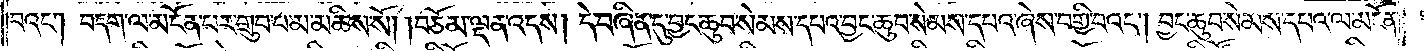བའང༌། བདག་ལ་མངོན་པར་གྲུབ་པ་མ་མཆིས་སོ། །བཅོམ་ལྡན་འདས། དེ་བཞིན་དུ་བྱང་ཆུབ་སེམས་དཔའ་བྱང་ཆུབ་སེམས་དཔའ་ཞེས་བགྱི་བའང༌། བྱང་ཆུབ་སེམས་དཔའ་ལ་མངོན་
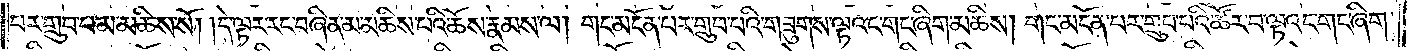པར་གྲུབ་པ་མ་མཆིས་སོ། །དེ་ལྟར་རང་བཞིན་མ་མཆིས་པའི་ཆོས་རྣམས་ལ། གང་མངོན་པར་གྲུབ་པའི་གཟུགས་ལྟའང་གང་ཞིག་མཆིས། གང་མངོན་པར་གྲུབ་པའི་ཚོར་བ་ལྟའང་གང་ཞིག་
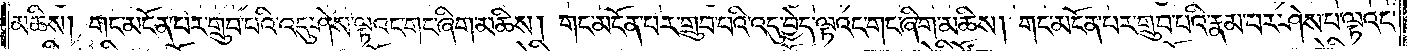མཆིས། གང་མངོན་པར་གྲུབ་པའི་འདུ་ཤེས་ལྟའང་གང་ཞིག་མཆིས། གང་མངོན་པར་གྲུབ་པའི་འདུ་བྱེད་ལྟའང་གང་ཞིག་མཆིས། གང་མངོན་པར་གྲུབ་པའི་རྣམ་པར་ཤེས་པ་ལྟའང་
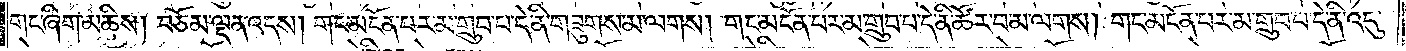གང་ཞིག་མཆིས། བཅོམ་ལྡན་འདས། གང་མངོན་པར་མ་གྲུབ་པ་དེ་ནི་གཟུགས་མ་ལགས། གང་མངོན་པར་མ་གྲུབ་པ་དེ་ནི་ཚོར་བ་མ་ལགས། གང་མངོན་པར་མ་གྲུབ་པ་དེ་ནི་འདུ་
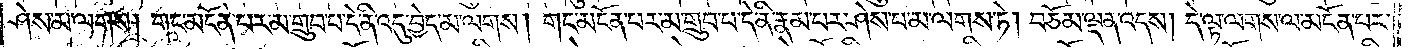ཤེས་མ་ལགས། གང་མངོན་པར་མ་གྲུབ་པ་དེ་ནི་འདུ་བྱེད་མ་ལགས། གང་མངོན་པར་མ་གྲུབ་པ་དེ་ནི་རྣམ་པར་ཤེས་པ་མ་ལགས་ཏེ། བཅོམ་ལྡན་འདས། དེ་ལྟ་ལགས་ལ་མངོན་པར་
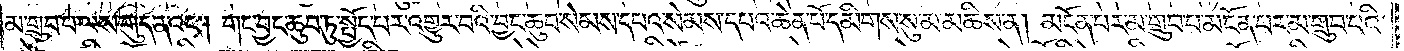མ་གྲུབ་པ་ལས་གུད་ནའང༌། གང་བྱང་ཆུབ་ཏུ་སྤྱོད་པར་འགྱུར་བའི་བྱང་ཆུབ་སེམས་དཔའ་སེམས་དཔའ་ཆེན་པོ་དམིགས་སུ་མ་མཆིས་ན། མངོན་པར་མ་གྲུབ་པ་མངོན་པར་མ་གྲུབ་པའི་
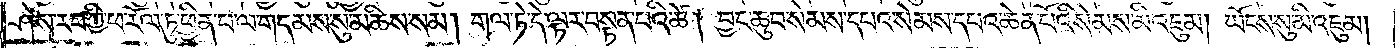ཤེས་རབ་ཀྱི་ཕ་རོལ་ཏུ་ཕྱིན་པ་ལ་གདམས་སུ་མཆིས་སམ། གལ་ཏེ་དེ་ལྟར་བསྟན་པའི་ཚེ། བྱང་ཆུབ་སེམས་དཔའ་སེམས་དཔའ་ཆེན་པོའི་སེམས་མི་འཇུམ། ཡོངས་སུ་མི་འཇུམ།
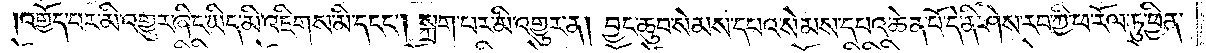འགྱོད་པར་མི་འགྱུར་ཞིང་ཡིད་མི་འཇིགས་མི་དངང༌། སྐྲག་པར་མི་འགྱུར་ན། བྱང་ཆུབ་སེམས་དཔའ་སེམས་དཔའ་ཆེན་པོ་དེ་ནི་ཤེས་རབ་ཀྱི་ཕ་རོལ་ཏུ་ཕྱིན་
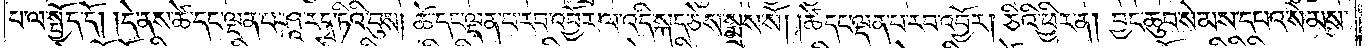པ་ལ་སྤྱོད་དོ། །དེ་ནས་ཚེ་དང་ལྡན་པ་ཤཱ་རདྭ་ཏིའི་བུས། ཚེ་དང་ལྡན་པ་རབ་འབྱོར་ལ་འདི་སྐད་ཅེས་སྨྲས་སོ། །ཚེ་དང་ལྡན་པ་རབ་འབྱོར། ཅིའི་ཕྱིར་ན། བྱང་ཆུབ་སེམས་དཔའ་སེམས་
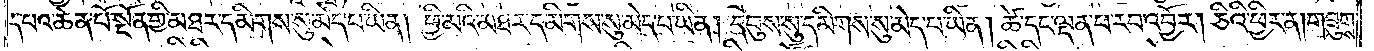དཔའ་ཆེན་པོ་སྔོན་གྱི་མཐར་དམིགས་སུ་མེད་པ་ཡིན། ཕྱི་མའི་མཐར་དམིགས་སུ་མེད་པ་ཡིན། དབུས་སུ་དམིགས་སུ་མེད་པ་ཡིན། ཚེ་དང་ལྡན་པ་རབ་འབྱོར། ཅིའི་ཕྱིར་ན། གཟུགས་
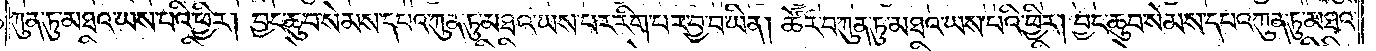ཀུན་ཏུ་མཐའ་ཡས་པའི་ཕྱིར། བྱང་ཆུབ་སེམས་དཔའ་ཀུན་ཏུ་མཐའ་ཡས་པར་རིག་པར་བྱ་བ་ཡིན། ཚོར་བ་ཀུན་ཏུ་མཐའ་ཡས་པའི་ཕྱིར། བྱང་ཆུབ་སེམས་དཔའ་ཀུན་ཏུ་མཐའ་
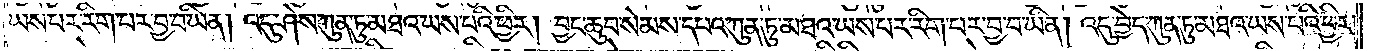ཡས་པར་རིག་པར་བྱ་བ་ཡིན། འདུ་ཤེས་ཀུན་ཏུ་མཐའ་ཡས་པའི་ཕྱིར། བྱང་ཆུབ་སེམས་དཔའ་ཀུན་ཏུ་མཐའ་ཡས་པར་རིག་པར་བྱ་བ་ཡིན། འདུ་བྱེད་ཀུན་ཏུ་མཐའ་ཡས་པའི་ཕྱིར།
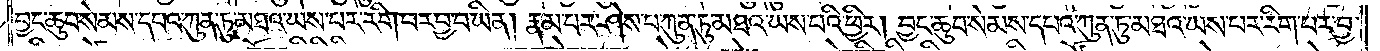བྱང་ཆུབ་སེམས་དཔའ་ཀུན་ཏུ་མཐའ་ཡས་པར་རིག་པར་བྱ་བ་ཡིན། རྣམ་པར་ཤེས་པ་ཀུན་ཏུ་མཐའ་ཡས་པའི་ཕྱིར། བྱང་ཆུབ་སེམས་དཔའ་ཀུན་ཏུ་མཐའ་ཡས་པར་རིག་པར་བྱ་
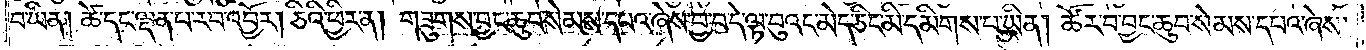བ་ཡིན། ཚེ་དང་ལྡན་པ་རབ་འབྱོར། ཅིའི་ཕྱིར་ན། གཟུགས་བྱང་ཆུབ་སེམས་དཔའ་ཞེས་བྱ་བ་དེ་ལྟ་བུའང་མེད་ཅིང་མི་དམིགས་པ་ཡིན། ཚོར་བ་བྱང་ཆུབ་སེམས་དཔའ་ཞེས་
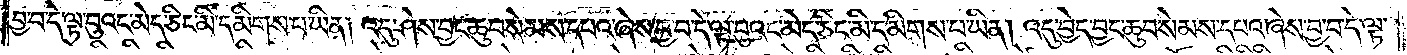བྱ་བ་དེ་ལྟ་བུའང་མེད་ཅིང་མི་དམིགས་པ་ཡིན། འདུ་ཤེས་བྱང་ཆུབ་སེམས་དཔའ་ཞེས་བྱ་བ་དེ་ལྟ་བུའང་མེད་ཅིང་མི་དམིགས་པ་ཡིན། འདུ་བྱེད་བྱང་ཆུབ་སེམས་དཔའ་ཞེས་བྱ་བ་དེ་ལྟ་
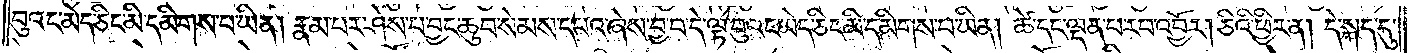བུའང་མེད་ཅིང་མི་དམིགས་པ་ཡིན། རྣམ་པར་ཤེས་པ་བྱང་ཆུབ་སེམས་དཔའ་ཞེས་བྱ་བ་དེ་ལྟ་བུའང་མེད་ཅིང་མི་དམིགས་པ་ཡིན། ཚེ་དང་ལྡན་པ་རབ་འབྱོར། ཅིའི་ཕྱིར་ན། དེ་སྐད་དུ་
